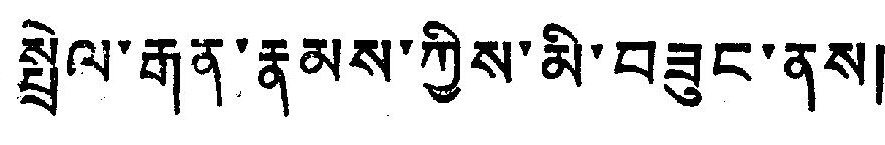སྤེལ་རྒན་རྣམས་ཀྱིས་མི་བཟུང་ནས།
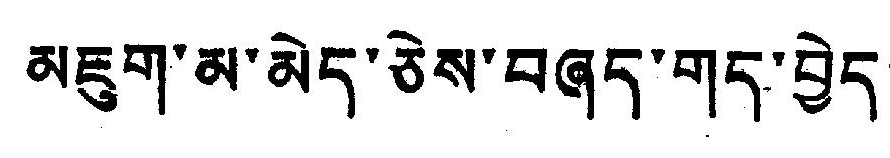མཇུག་མ་མེད་ཅེས་བཞད་གད་བྱེད།
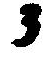3
